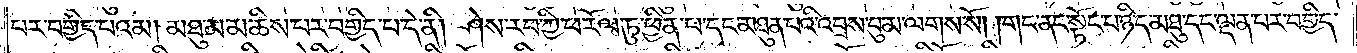པར་བགྱིད་པའམ། མཐུ་མ་མཆིས་པར་བགྱིད་པ་དེ་ནི། ཤེས་རབ་ཀྱི་ཕ་རོལ་ཏུ་ཕྱིན་པ་དང་མཐུན་པའི་འབྲས་བུ་མ་ལགས་སོ། །གང་ནང་སྟོང་པ་ཉིད་མཐུ་དང་ལྡན་པར་བགྱིད་
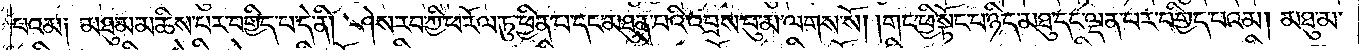པའམ༑ མཐུ་མ་མཆིས་པར་བགྱིད་པ་དེ་ནི། ཤེས་རབ་ཀྱི་ཕ་རོལ་ཏུ་ཕྱིན་པ་དང་མཐུན་པའི་འབྲས་བུ་མ་ལགས་སོ། །གང་ཕྱི་སྟོང་པ་ཉིད་མཐུ་དང་ལྡན་པར་བགྱིད་པའམ། མཐུ་མ་
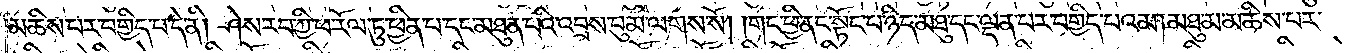མཆིས་པར་བགྱིད་པ་དེ་ནི། ཤེས་རབ་ཀྱི་ཕ་རོལ་ཏུ་ཕྱིན་པ་དང་མཐུན་པའི་འབྲས་བུ་མ་ལགས་སོ། །གང་ཕྱི་ནང་སྟོང་པ་ཉིད་མཐུ་དང་ལྡན་པར་བགྱིད་པའམ། མཐུ་མ་མཆིས་པར་
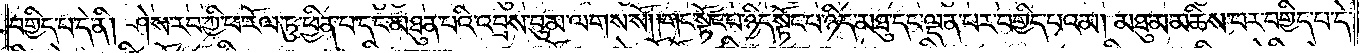བགྱིད་པ་དེ་ནི། ཤེས་རབ་ཀྱི་ཕ་རོལ་ཏུ་ཕྱིན་པ་དང་མཐུན་པའི་འབྲས་བུ་མ་ལགས་སོ། །གང་སྟོང་པ་ཉིད་སྟོང་པ་ཉིད་མཐུ་དང་ལྡན་པར་བགྱིད་པའམ། མཐུ་མ་མཆིས་པར་བགྱིད་པ་དེ་
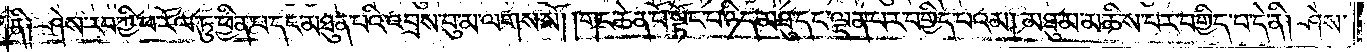ནི༑ ཤེས་རབ་ཀྱི་ཕ་རོལ་ཏུ་ཕྱིན་པ་དང་མཐུན་པའི་འབྲས་བུ་མ་ལགས་སོ། །གང་ཆེན་པོ་སྟོང་པ་ཉིད་མཐུ་དང་ལྡན་པར་བགྱིད་པའམ། མཐུ་མ་མཆིས་པར་བགྱིད་པ་དེ་ནི། ཤེས་
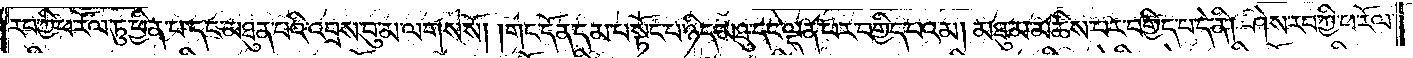རབ་ཀྱི་ཕ་རོལ་ཏུ་ཕྱིན་པ་དང་མཐུན་པའི་འབྲས་བུ་མ་ལགས་སོ། །གང་དོན་དམ་པ་སྟོང་པ་ཉིད་མཐུ་དང་ལྡན་པར་བགྱིད་པའམ། མཐུ་མ་མཆིས་པར་བགྱིད་པ་དེ་ནི། ཤེས་རབ་ཀྱི་ཕ་རོལ་
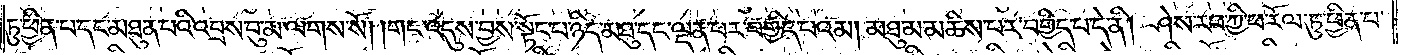ཏུ་ཕྱིན་པ་དང་མཐུན་པའི་འབྲས་བུ་མ་ལགས་སོ། །གང་འདུས་བྱས་སྟོང་པ་ཉིད་མཐུ་དང་ལྡན་པར་བགྱིད་པའམ། མཐུ་མ་མཆིས་པར་བགྱིད་པ་དེ་ནི། ཤེས་རབ་ཀྱི་ཕ་རོལ་ཏུ་ཕྱིན་པ་
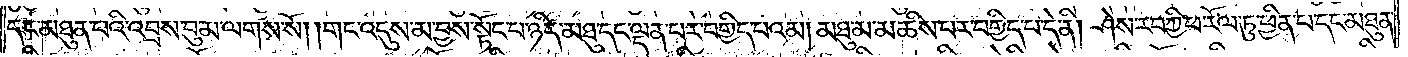དང་མཐུན་པའི་འབྲས་བུ་མ་ལགས་སོ། །གང་འདུས་མ་བྱས་སྟོང་པ་ཉིད་མཐུ་དང་ལྡན་པར་བགྱིད་པའམ། མཐུ་མ་མཆིས་པར་བགྱིད་པ་དེ་ནི། ཤེས་རབ་ཀྱི་ཕ་རོལ་ཏུ་ཕྱིན་པ་དང་མཐུན་
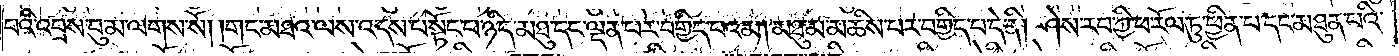པའི་འབྲས་བུ་མ་ལགས་སོ། །གང་མཐའ་ལས་འདས་པ་སྟོང་པ་ཉིད་མཐུ་དང་ལྡན་པར་བགྱིད་པའམ། མཐུ་མ་མཆིས་པར་བགྱིད་པ་དེ་ནི། ཤེས་རབ་ཀྱི་ཕ་རོལ་ཏུ་ཕྱིན་པ་དང་མཐུན་པའི་
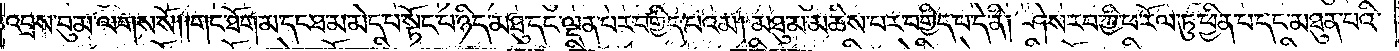འབྲས་བུ་མ་ལགས་སོ། །གང་ཐོག་མ་དང་ཐ་མ་མེད་པ་སྟོང་པ་ཉིད་མཐུ་དང་ལྡན་པར་བགྱིད་པའམ། མཐུ་མ་མཆིས་པར་བགྱིད་པ་དེ་ནི། ཤེས་རབ་ཀྱི་ཕ་རོལ་ཏུ་ཕྱིན་པ་དང་མཐུན་པའི་
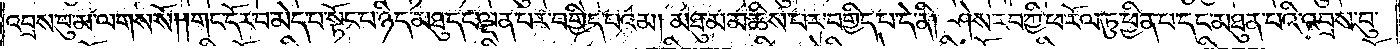འབྲས་བུ་མ་ལགས་སོ། །གང་དོར་བ་མེད་པ་སྟོང་པ་ཉིད་མཐུ་དང་ལྡན་པར་བགྱིད་པའམ། མཐུ་མ་མཆིས་པར་བགྱིད་པ་དེ་ནི། ཤེས་རབ་ཀྱི་ཕ་རོལ་ཏུ་ཕྱིན་པ་དང་མཐུན་པའི་འབྲས་བུ་
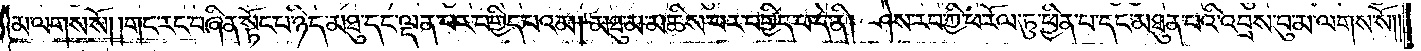མ་ལགས་སོ། །གང་རང་བཞིན་སྟོང་པ་ཉིད་མཐུ་དང་ལྡན་པར་བགྱིད་པའམ། མཐུ་མ་མཆིས་པར་བགྱིད་པ་དེ་ནི། ཤེས་རབ་ཀྱི་ཕ་རོལ་ཏུ་ཕྱིན་པ་དང་མཐུན་པའི་འབྲས་བུ་མ་ལགས་སོ། །
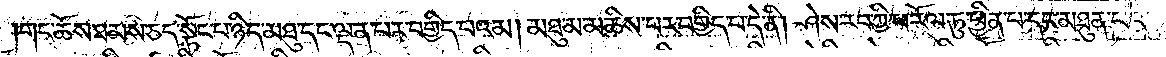གང་ཆོས་ཐམས་ཅད་སྟོང་པ་ཉིད་མཐུ་དང་ལྡན་པར་བགྱིད་པའམ། མཐུ་མ་མཆིས་པར་བགྱིད་པ་དེ་ནི། ཤེས་རབ་ཀྱི་ཕ་རོལ་ཏུ་ཕྱིན་པ་དང་མཐུན་པའི་
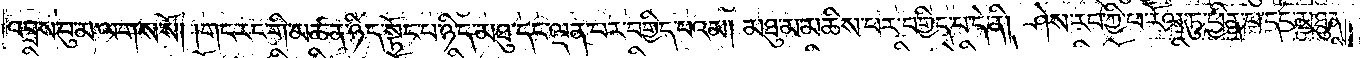འབྲས་བུ་མ་ལགས་སོ། །གང་རང་གི་མཚན་ཉིད་སྟོང་པ་ཉིད་མཐུ་དང་ལྡན་པར་བགྱིད་པའམ། མཐུ་མ་མཆིས་པར་བགྱིད་པ་དེ་ནི། ཤེས་རབ་ཀྱི་ཕ་རོལ་ཏུ་ཕྱིན་པ་དང་མཐུན་
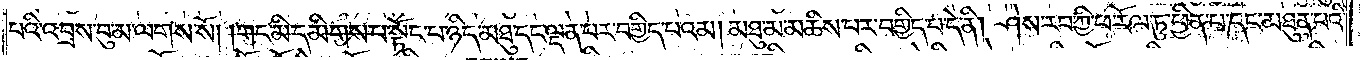པའི་འབྲས་བུ་མ་ལགས་སོ། །གང་མི་དམིགས་པ་སྟོང་པ་ཉིད་མཐུ་དང་ལྡན་པར་བགྱིད་པའམ། མཐུ་མ་མཆིས་པར་བགྱིད་པ་དེ་ནི། ཤེས་རབ་ཀྱི་ཕ་རོལ་ཏུ་ཕྱིན་པ་དང་མཐུན་པའི་
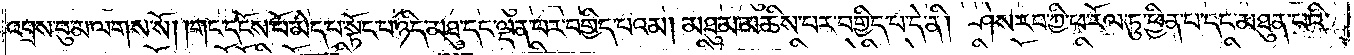འབྲས་བུ་མ་ལགས་སོ། །གང་དངོས་པོ་མེད་པ་སྟོང་པ་ཉིད་མཐུ་དང་ལྡན་པར་བགྱིད་པའམ། མཐུ་མ་མཆིས་པར་བགྱིད་པ་དེ་ནི། ཤེས་རབ་ཀྱི་ཕ་རོལ་ཏུ་ཕྱིན་པ་དང་མཐུན་པའི་
